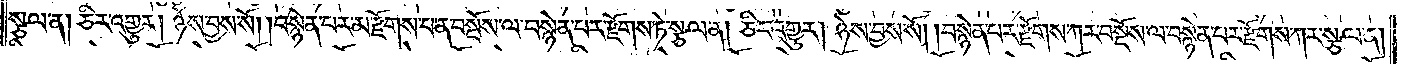སྩལ་ན། ཅིར་འགྱུར། ཉེས་བྱས་སོ། །བསྙེན་པར་མ་རྫོགས་པ་ན་བསྔོས་ལ་བསྙེན་པར་རྫོགས་ཏེ་སྩལ་ན། ཅིར་འགྱུར། ཉེས་བྱས་སོ། །བསྙེན་པར་རྫོགས་ཀར་བསྔོས་ལ་བསྙེན་པར་རྫོགས་ཀར་སྩལ་ན།
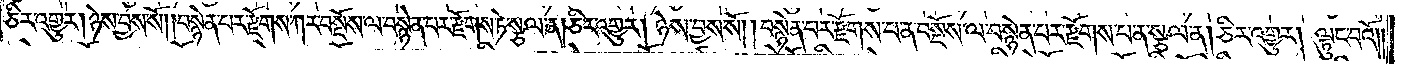ཅིར་འགྱུར། ཉེས་བྱས་སོ། །བསྙེན་པར་རྫོགས་ཀར་བསྔོས་ལ་བསྙེན་པར་རྫོགས་ཏེ་སྩལ་ན། ཅིར་འགྱུར། ཉེས་བྱས་སོ། །བསྙེན་པར་རྫོགས་པ་ན་བསྔོས་ལ་བསྙེན་པར་རྫོགས་པ་ན་སྩལ་ན། ཅིར་འགྱུར། ལྟུང་བའོ། །
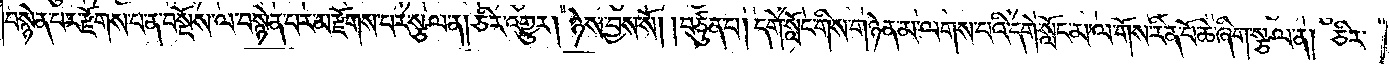བསྙེན་པར་རྫོགས་པ་ན་བསྔོས་ལ་བསྙེན་པར་མ་རྫོགས་པར་སྩལ་ན། ཅིར་འགྱུར། ཉེས་བྱས་སོ། །བཙུན་པ། དགེ་སློང་གིས་གཉེན་མ་ལགས་པའི་དགེ་སློང་མ་ལ་གོས་རིན་པོ་ཆེ་ཞིག་སྩལ་ན། ཅིར་
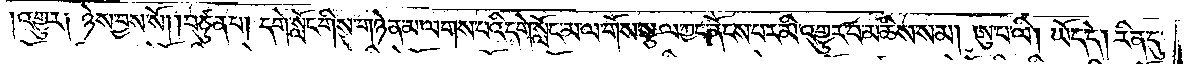འགྱུར༑ ཉེས་བྱས་སོ། །བཙུན་པ། དགེ་སློང་གིས་གཉེན་མ་ལགས་པའི་དགེ་སློང་མ་ལ་གོས་སྩལ་ཀྱང་ནོངས་པར་མི་འགྱུར་བ་མཆིས་སམ། ཨུ་པ་ལི། ཡོད་དེ། རིན་དུ་
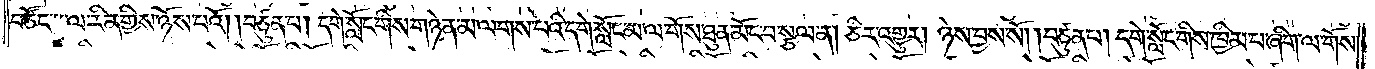བཙོང་ལ་རིན་གྱིས་ཉོས་པའོ། །བཙུན་པ། དགེ་སློང་གིས་གཉེན་མ་ལགས་པའི་དགེ་སློང་མ་ལ་གོས་ཐུན་མོང་བསྩལ་ན། ཅིར་འགྱུར། ཉེས་བྱས་སོ། །བཙུན་པ། དགེ་སློང་གིས་ཁྱིམ་པ་ཞིག་ལ་གོས་
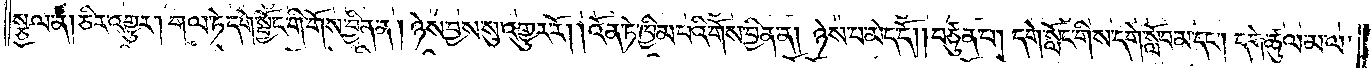སྩལ་ན། ཅིར་འགྱུར། གལ་ཏེ་དགེ་སྦྱོང་གི་གོས་བྱིན་ན། ཉེས་བྱས་སུ་འགྱུར་རོ། །འོན་ཏེ་ཁྱིམ་པའི་གོས་བྱིན་ན། ཉེས་པ་མེད་དོ། །བཙུན་པ། དགེ་སློང་གིས་དགེ་སློབ་མ་དང༌། དགེ་ཚུལ་མ་ལ་
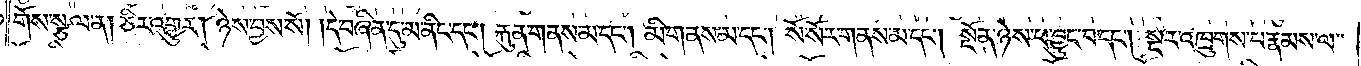གོས་སྩལ་ན། ཅིར་འགྱུར། ཉེས་བྱས་སོ། །དེ་བཞིན་དུ་མ་ནིང་དང༌། རྐུན་གནས་མ་དང༌། མི་གནས་མ་དང༌། སོ་སོར་གནས་མ་དང༌། སྔོན་ཉེས་པ་བྱུང་བ་དང༌། སྔར་འཁྲུགས་པ་རྣམས་ལ་
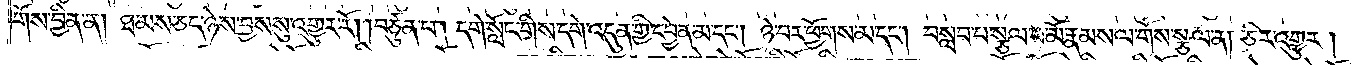གོས་བྱིན་ན། ཐམས་ཅད་ཉེས་བྱས་སུ་འགྱུར་རོ། །བཙུན་པ། དགེ་སློང་གིས་དགེ་འདུན་གྱི་དབྱེན་མ་དང༌། ཉེ་བར་ཕྱོགས་མ་དང༌། བསླབ་པ་སྩལ་བ་མོ་རྣམས་ལ་གོས་སྩལ་ན། ཅིར་འགྱུར།
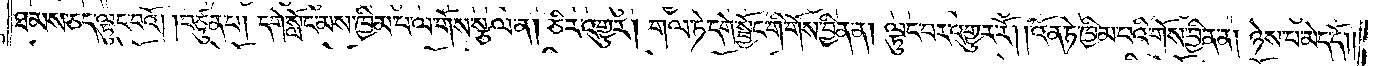ཐམས་ཅད་ལྟུང་བའོ། །བཙུན་པ། དགེ་སློང་མས་ཁྱིམ་པ་ལ་གོས་སྩལ་ན། ཅིར་འགྱུར། གལ་ཏེ་དགེ་སྦྱོང་གི་གོས་བྱིན་ན། ལྟུང་བར་འགྱུར་རོ། །འོན་ཏེ་ཁྱིམ་པའི་གོས་བྱིན་ན། ཉེས་པ་མེད་དོ། །
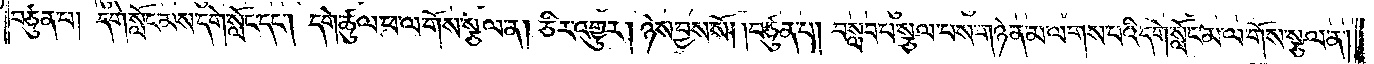བཙུན་པ། དགེ་སློང་མས་དགེ་སློང་དང༌། དགེ་ཚུལ་ཕ་ལ་གོས་སྩལ་ན། ཅིར་འགྱུར། ཉེས་བྱས་སོ། །བཙུན་པ། བསླབ་པ་སྩལ་པས་གཉེན་མ་ལགས་པའི་དགེ་སློང་མ་ལ་གོས་སྩལ་ན།
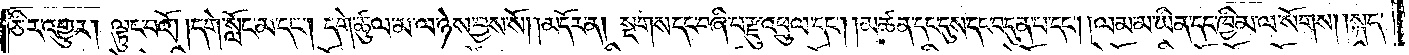ཅིར་འགྱུར། ལྟུང་བའོ། །དགེ་སློང་མ་དང༌། དགེ་ཚུལ་མ་ལ་ཉེས་བྱས་སོ།    །མདོར་ན། སྔགས་དང་བཞི་བ་རྫུ་འཕྲུལ་དང༌། །མཚན་དང་དུས་དང་བདུན་པ་དང༌། །ལམ་མ་ཡིན་དང་ཁྱིམ་ལ་སོགས། །སྐད་
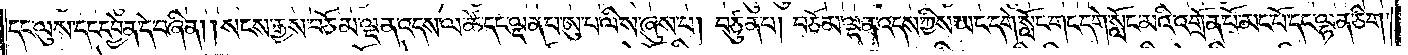དང་ལུས་དང་དབྱེན་དེ་བཞིན། །སངས་རྒྱས་བཅོམ་ལྡན་འདས་ལ་ཚེ་དང་ལྡན་པ་ཨུ་པ་ལིས་ཞུས་པ། བཙུན་པ། བཅོམ་ལྡན་འདས་ཀྱིས་ཡང་དགེ་སློང་གང་དགེ་སློང་མའི་འགྲོན་པོ་མང་པོ་དང་ལྷན་ཅིག་
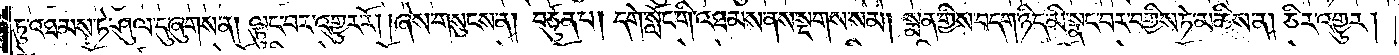ཏུ་འཐམས་ཏེ་ཤུལ་དུ་ཞུགས་ན། ལྟུང་བར་འགྱུར་རོ། །ཞེས་གསུངས་ན། བཙུན་པ། དགེ་སློང་གི་འཐམས་ནས་སྔགས་སམ། སྨན་གྱིས་བདག་ཉིད་མི་སྣང་བར་བགྱིས་ཏེ་མཆིས་ན། ཅིར་འགྱུར།
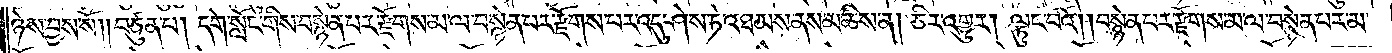ཉེས་བྱས་སོ། །བཙུན་པ། དགེ་སློང་གིས་བསྙེན་པར་རྫོགས་མ་ལ་བསྙེན་པར་རྫོགས་པར་འདུ་ཤེས་ཏེ་འཐམས་ནས་མཆིས་ན། ཅིར་འགྱུར། ལྟུང་བའོ། །བསྙེན་པར་རྫོགས་མ་ལ་བསྙེན་པར་མ་
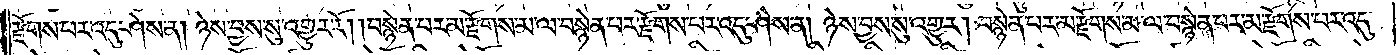རྫོགས་པར་འདུ་ཤེས་ན། ཉེས་བྱས་སུ་འགྱུར་རོ། །བསྙེན་པར་མ་རྫོགས་མ་ལ་བསྙེན་པར་རྫོགས་པར་འདུ་ཤེས་ན། ཉེས་བྱས་སུ་འགྱུར། །བསྙེན་པར་མ་རྫོགས་མ་ལ་བསྙེན་པར་མ་རྫོགས་པར་འདུ་
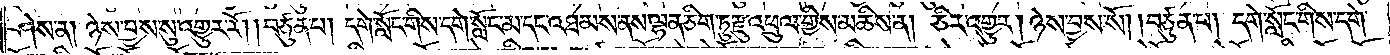ཤེས་ན། ཉེས་བྱས་སུ་འགྱུར་རོ། །བཙུན་པ། དགེ་སློང་གིས་དགེ་སློང་མ་དང་འཐམས་ནས་ལྷན་ཅིག་ཏུ་རྫུ་འཕྲུལ་གྱིས་མཆིས་ན། ཅིར་འགྱུར། ཉེས་བྱས་སོ། །བཙུན་པ། དགེ་སློང་གིས་དགེ་
